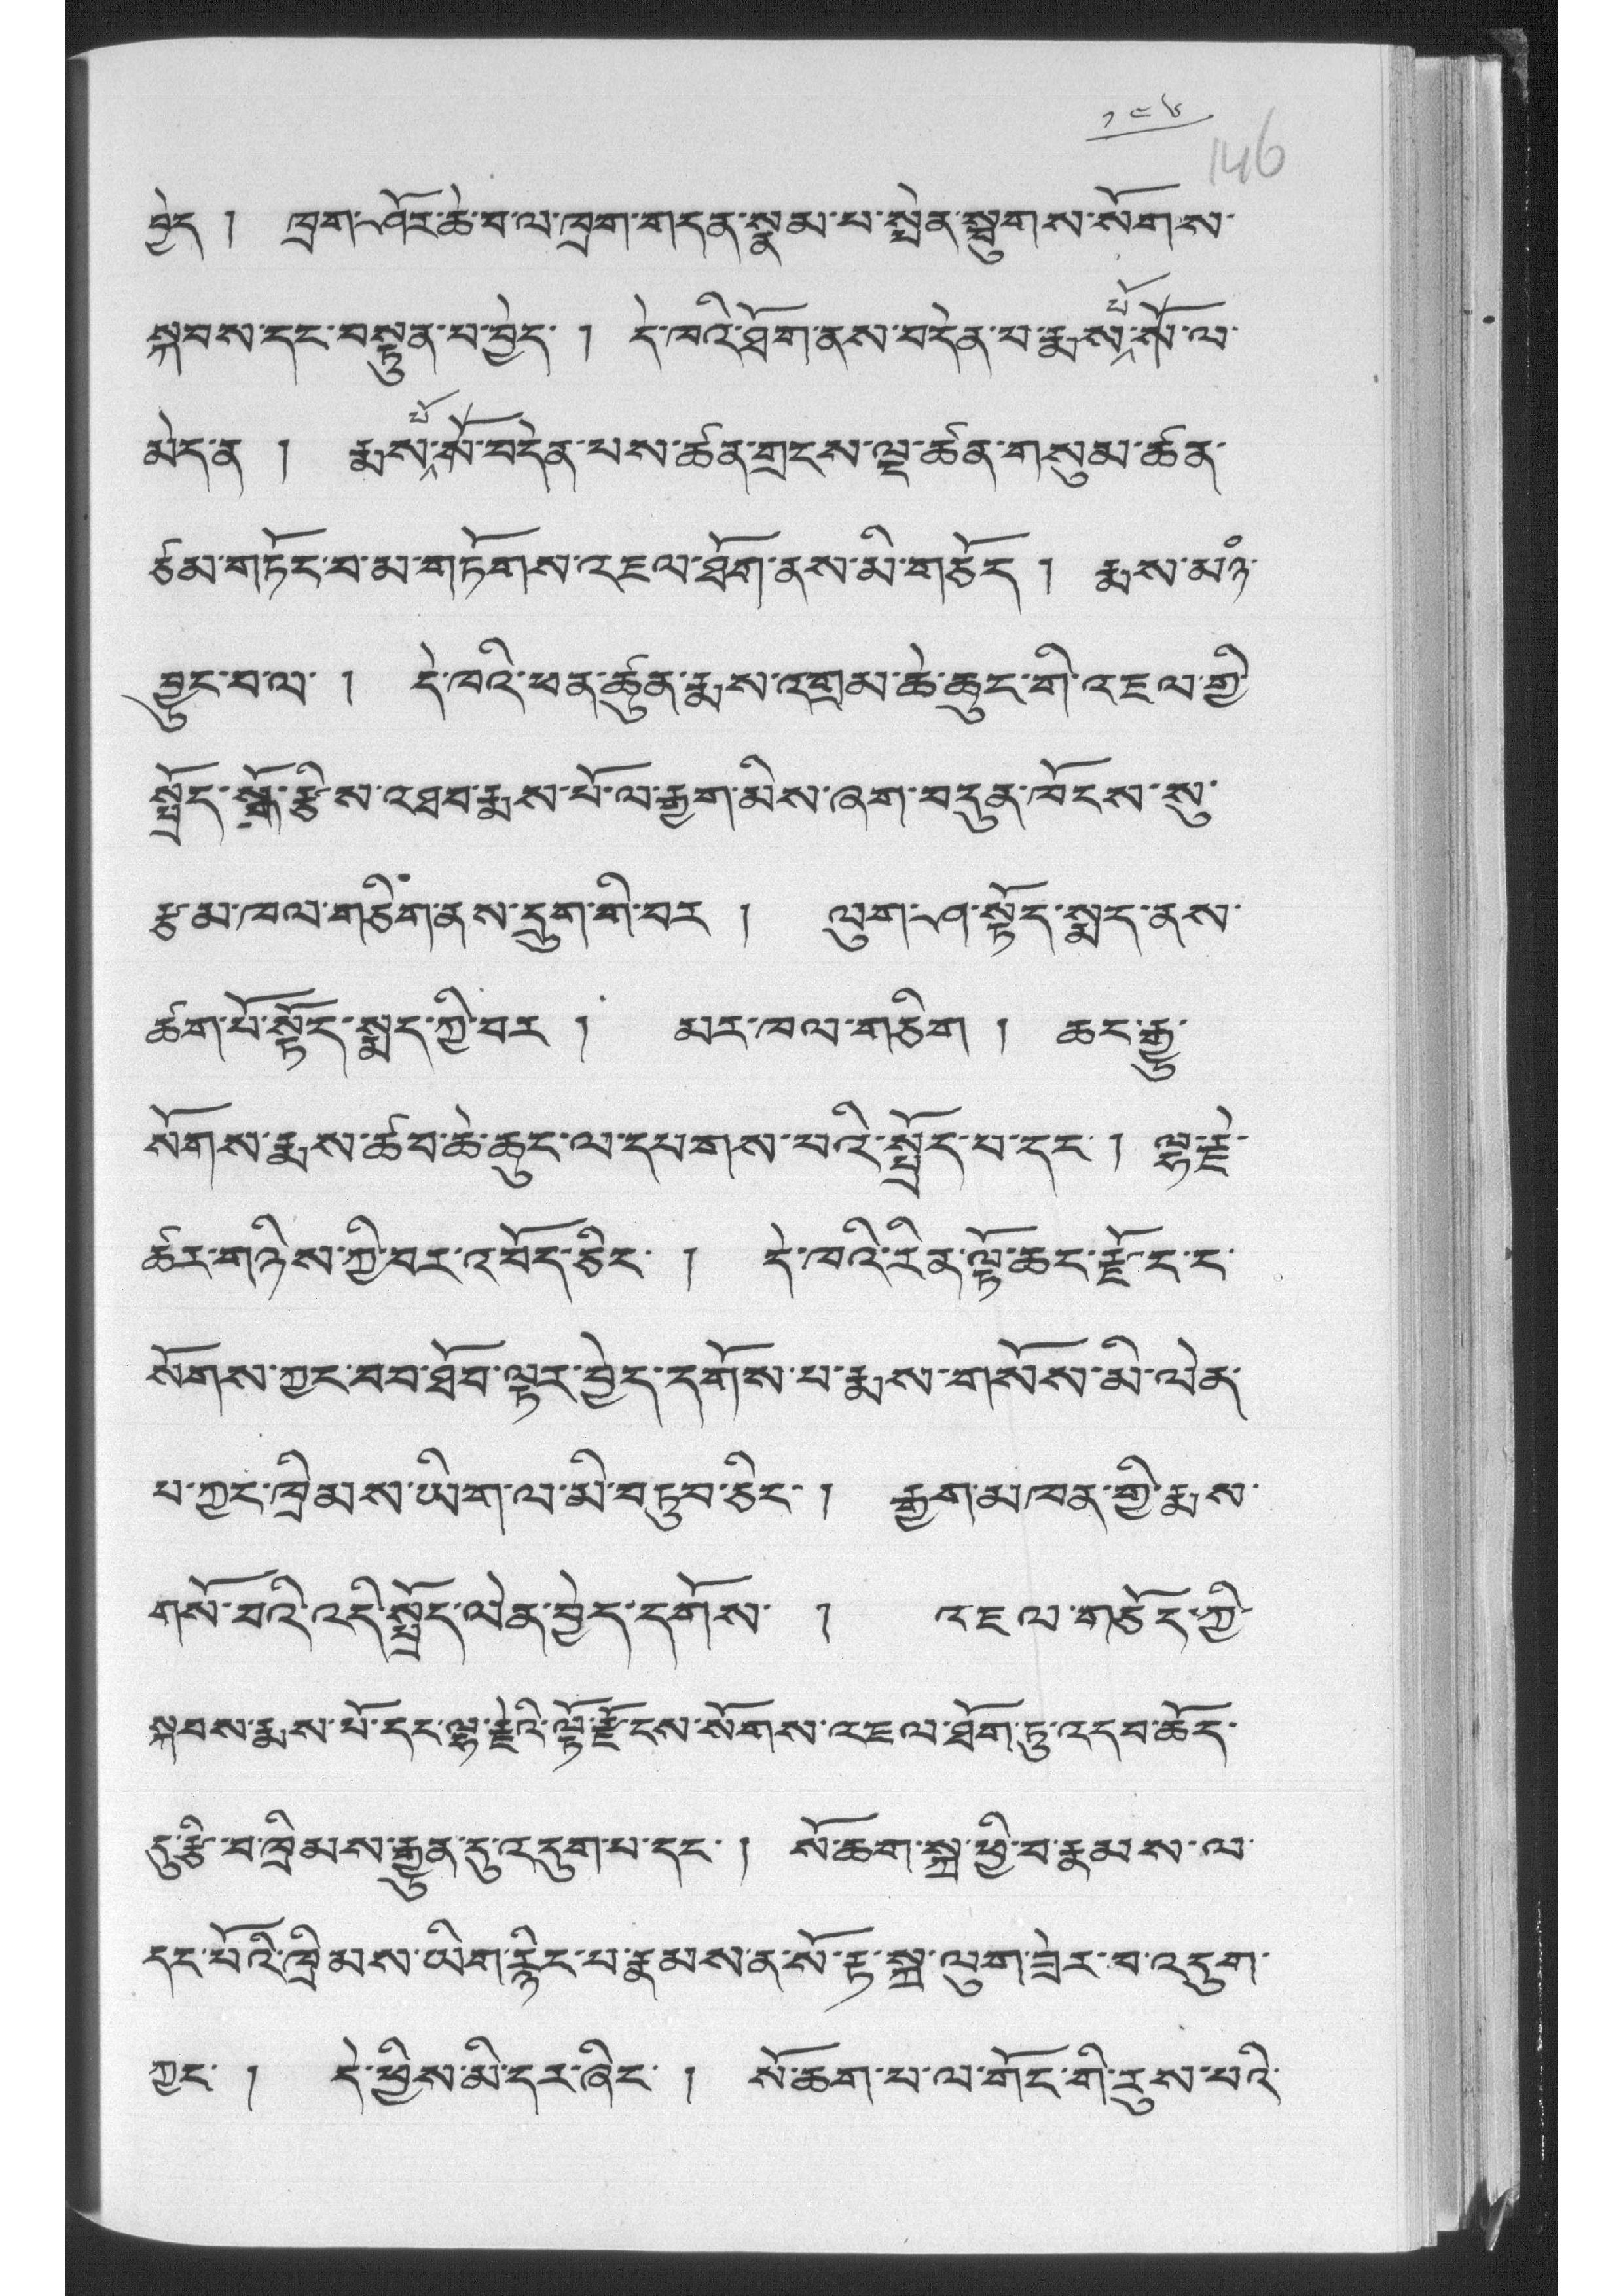༡༥༦
བྱེད ། ཁྲག་ཤོར་ཆེ་བ་ལ་ཁྲག་གདན་སྣམ་པ་སྤེན་སྦུགས་སོགས་
སྐབས་དང་བསྟུན་པ་བྱེད་ ། དེ་ཁའི་ཐོག་ནས་བདེན་པ་རྨས་པོ་སོ་ལ་
མེད་ན ། རྨས་པོ་སོ་བདེན་པས་ཚན་གྲངས་ལྔ་ཚན་གསུམ་ཚན་
ཙམ་གཏོང་བ་མ་གཏོགས་འཇལ་ཐོག་ནས་མི་གཅོད། རྨས་མཉཾ་
བྱུང་བ་ལ་ ། དེ་ཁའི་ཕན་ཚུན་རྨས་འགྲམ་ཆེ་ཆུང་གི་འཇལ་གྱི་
སྤྱོད་སྒོ་རྩིས་འཐབ་རྨས་པོ་ལ་རྒྱག་མིས་ཞག་བདུན་ཁོངས་སུ་
རྩ་མ་ཁལ་གཅིག་ནས་དྲུག་གི་བར ། ལུག་ཤ་སྟོད་སྨད་ནས་
ཚག་པོ་སྟོད་སྨད་ཀྱི་བར ། མར་ཁལ་གཅིག ། ཆང་རྒྱུ་
སོགས་རྨས་ཚབ་ཆེ་ཆུང་ལ་དཔགས་པའི་སྤྲོད་པ་དང་། ལྷ་རྗེ་
ཚར་གཉིས་ཀྱི་བར་འབོད་ཅིང་ ། དེ་ཁའི་རིན་ལྟོ་ཆང་རྫོང་ང་
སོགས་ཀྱང་བབ་ཐོབ་ལྟར་བྱེད་དགོས་པ་རྨས་གསོས་མི་ལེན་
པ་ཀྱང་ཁྲིམས་ཡིག་ལ་མི་བཏུབ་ཅིང་། རྒྱག་མཁན་གྱི་རྨས་
གསོ་བའི་འདི་སྤྲོད་ལེན་བྱེད་དགོས་ ། འཇལ་གཅོད་ཀྱི་
སྐབས་རྨས་པོ་དང་ལྷ་རྗེའི་ལྟོ་རྫོངས་སོགས་འཇལ་ཐོག་ཏུ་འདབ་ཆོད་
དུ་རྩི་བ་ཁྲིམས་རྒྱུན་དུ་འདུག་པ་དང་། སོ་ཆག་སྐྲ་ཕྱི་བ་རྣམས་ལ་
དང་པོའི་ཁྲིམས་ཡིག་རྙིང་པ་རྣམས་ན་སོ་རྟ་སྐྲ་ལུག་ཟེར་བ་འདུག་
ཀྱང་ ། དེ་ཕྱིས་མི་དར་ཞིང་ ། སོ་ཆག་པ་ལ་གོང་གི་རུས་པའི་
